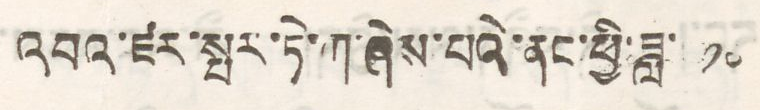འབའ་ཛར་སྤར་ཏེ་ཀ་ཞེས་པའི་ནང་ཕྱི་ཟླ་ ༡༠
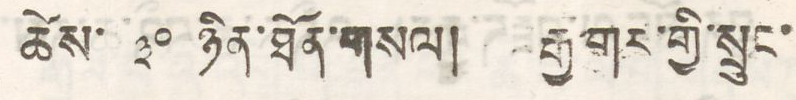ཚེས་ ༣༠ ཉིན་ཐོན་གསལ། རྒྱ་གར་གྱི་སྲུང་
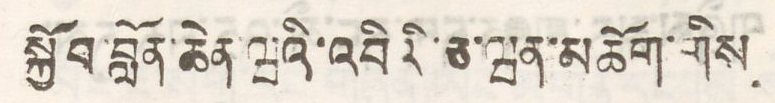སྐྱོབ་བློན་ཆེན་ཝའི་འབིའི་ཅ་ཝན་མཆོག་གིས
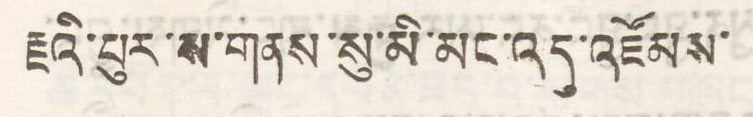རྗའི་པུར་ས་གནས་སུ་མི་མང་འདུ་འཛོམས་
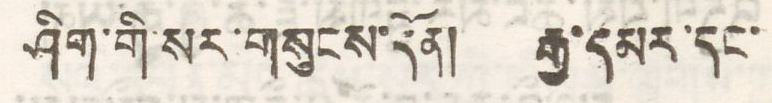ཤིག་གི་སར་གསུངས་དོན། རྒྱ་དམར་དང་
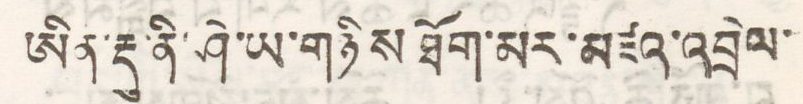ཨིན་རྡུ་ནི་ཤེ་ཡ་གཉིས ཐོག་མར་མཛའ་འབྲེལ་
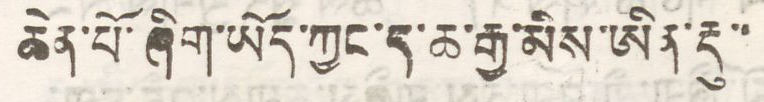ཆེན་པོ་ཞིག་ཡོད་ཀྱང་ད་ཆ་རྒྱ་མིས་ཨིན་རྡུ་་
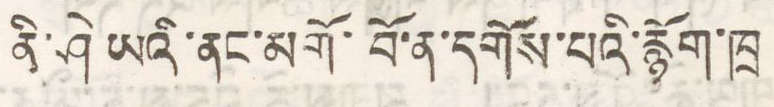ནི་ཤེ་ཡའི་ནང་མགོ་བོ་ན་དགོས་པའི་རྙོག་ཁྲ
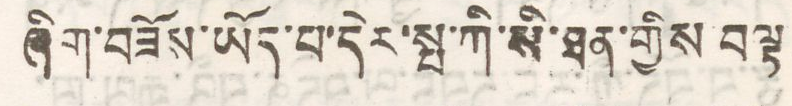ཞིག་བཟོས་ཡོད་པ་དེར་སྤ་ཀི་སི་ཐན་གྱིས བལྟ
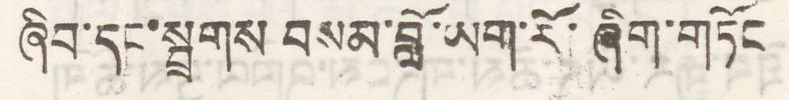ཞིབ་དང་སྦྲགས བསམ་བློ་ཡག་རོ་ཞིག་གཏོང
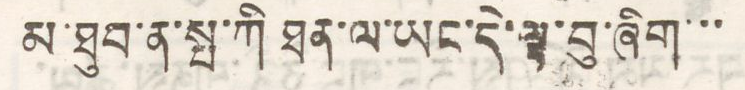མ་ཐུབ་ན་སྤ་ཀི་ནི་ཐན་ལ་ཡང་དེ་ལྟ་བུ་ཞིག་་་
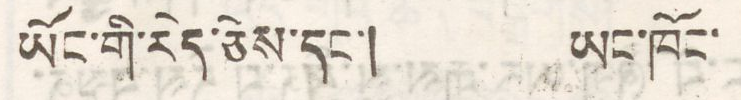ཡོང་གི་རེད་ཅེས་དང་། ཡང་ཁོང་
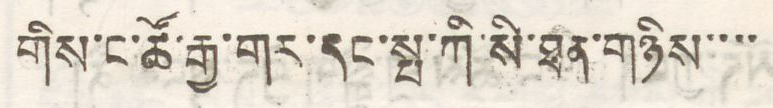གིས་ང་ཚོ་རྒྱ་གར་དང་སྤ་ཀི་སི་ཐན་གཉིས་་་་
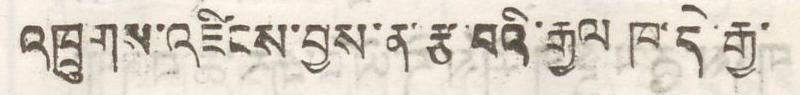འཁྲུགས་འཛིངས་བྱས་ན་རྩ་བའི་རྒྱལ ཁ་དེ་རྒྱ་
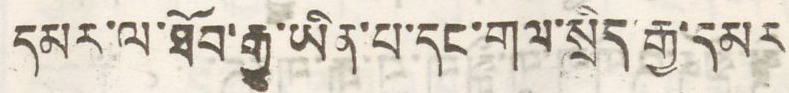དམར་ལ་ཐོབ་རྒྱུ་ཡིན་པ་དང་གལ་སྲིད་རྒྱ་དམར
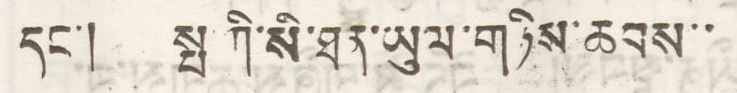དང་། སྤ་ཀི་སི་ཐན་ཡུལ་གཉིས་ཆབས་་
